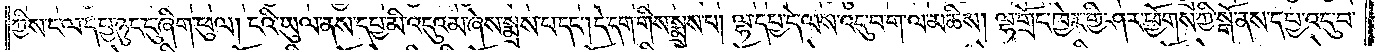ཀྱིས་ང་ལ་དཔྱ་ཉུང་དུ་ཞིག་ཕུལ། ངའི་ཡུལ་ནས་དཔྱ་མི་འདུའམ་ཞེས་སྨྲས་པ་དང༌། དེ་དག་གིས་སྨྲས་པ། ལྷ་དཔྱ་དེ་ལས་འདུ་བ་ག་ལ་མཆིས། ལྷ་གྲོང་ཁྱེར་གྱི་ཤར་ཕྱོགས་ཀྱི་སྒོ་ནས་དཔྱ་འདུ་བ་
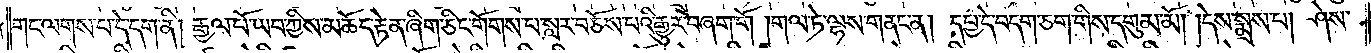གང་ལགས་པ་དེ་དག་ནི། རྒྱལ་པོ་ཡབ་ཀྱིས་མཆོད་རྟེན་ཞིག་ཅིང་གོགས་པ་སླར་བཅོས་པའི་རྒྱུར་བཞག་གོ །གལ་ཏེ་ལྷས་གནང་ན། དཔྱ་དེ་བདག་ཅག་གིས་དགུམ་མོ། །དེས་སྨྲས་པ། ཤེས་
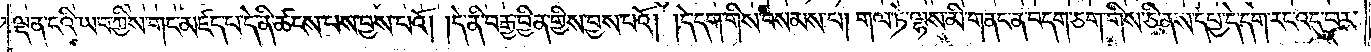ལྡན་ངའི་ཡབ་ཀྱིས་གང་མཛད་པ་དེ་ནི་ཚངས་པས་བྱས་པའོ། །དེ་ནི་བརྒྱ་བྱིན་གྱིས་བྱས་པའོ། །དེ་དག་གིས་བསམས་པ། གལ་ཏེ་ལྷས་མི་གནང་ན་བདག་ཅག་གིས་ཅི་ནས་དཔྱ་དེ་དག་རང་འདུ་བར་
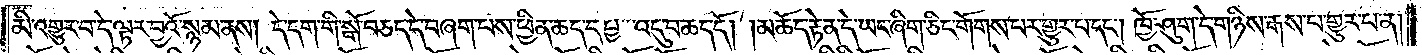མི་འགྱུར་བ་དེ་ལྟར་བྱའོ་སྙམ་ནས། དེ་དག་གི་སྒོ་བཅད་དེ་བཞག་པས་ཕྱིན་ཆད་དཔྱ་འདུ་བ་ཆད་དོ། །མཆོད་རྟེན་དེ་ཡང་ཞིག་ཅིང་གོགས་པར་གྱུར་པ་དང༌། ཁྱོ་ཤུག་དེ་གཉིས་རྒས་པ་གྱུར་པ་ན།
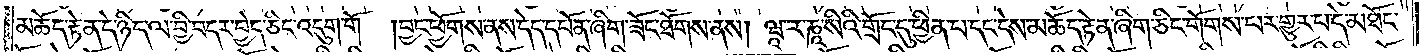མཆོད་རྟེན་དེ་ཉིད་ལ་བྱི་བདར་བྱེད་ཅིང་འདུག་གོ །བྱང་ཕྱོགས་ནས་དེད་དཔོན་ཞིག་ཟོང་ཐོགས་ནས། ཝཱ་ར་ཎཱ་སིའི་གྲོང་དུ་ཕྱིན་པ་དང་དེས་མཆོད་རྟེན་ཞིག་ཅིང་གོགས་པར་གྱུར་པ་དེ་མཐོང་
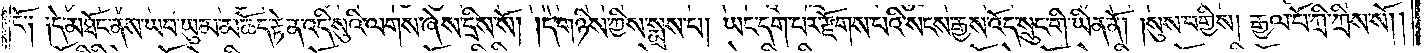ངོ༏ ༏  དེ་མཐོང་ནས་ཡབ་ཡུམ་མཆོད་རྟེན་འདི་སུའི་ལགས་ཞེས་དྲིས་སོ། །དེ་གཉིས་ཀྱིས་སྨྲས་པ། ཡང་དག་པར་རྫོགས་པའི་སངས་རྒྱས་འོད་སྲུང་གི་ཡིན་ནོ། །སུས་བགྱིས། རྒྱལ་པོ་ཀྲི་ཀྲིས་སོ། །
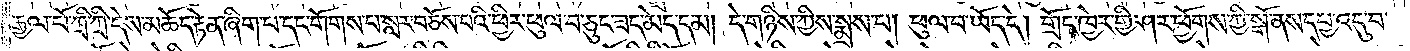རྒྱལ་པོ་ཀྲི་ཀྲི་དེས་མཆོད་རྟེན་ཞིག་པ་དང་གོགས་པ་སླར་བཅོས་པའི་ཕྱིར་ཕུལ་བ་ཅུང་ཟད་མེད་དམ། དེ་གཉིས་ཀྱིས་སྨྲས་པ། ཕུལ་བ་ཡོད་དེ། གྲོང་ཁྱེར་གྱི་ཤར་ཕྱོགས་ཀྱི་སྒོ་ནས་དཔྱ་འདུ་བ་
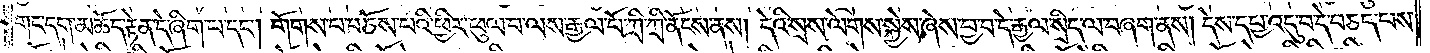གང་དག་མཆོད་རྟེན་དེ་ཞིག་པ་དང༌། གོགས་པ་བཅོས་པའི་ཕྱིར་ཕུལ་བ་ལས་རྒྱལ་པོ་ཀྲི་ཀྲི་ནོངས་ནས། དེའི་སྲས་ལེགས་སྐྱེས་ཞེས་བྱ་བ་དེ་རྒྱལ་སྲིད་ལ་བཞག་ནས། དེས་དཔྱ་འདུ་བ་དེ་བཅད་པས་
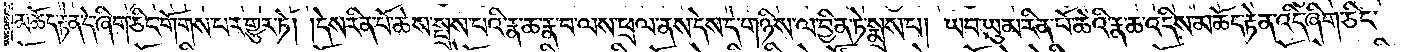མཆོད་རྟེན་དེ་ཞིག་ཅིང་གོགས་པར་གྱུར་ཏོ། །དེས་རིན་པོ་ཆེས་སྤྲས་པའི་རྣ་ཆ་རྣ་བ་ལས་ཕྲལ་ནས་དེས་དེ་གཉིས་ལ་བྱིན་ཏེ་སྨྲས་པ། ཡབ་ཡུམ་རིན་པོ་ཆེའི་རྣ་ཆ་འདིས་མཆོད་རྟེན་འདི་ཞིག་ཅིང་
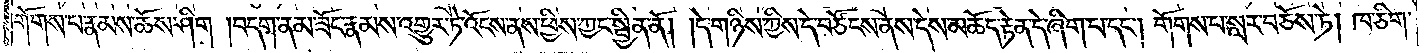གོགས་པ་རྣམས་ཆོས་ཤིག །བདག་ནམ་ཟོང་རྣམས་འགྱུར་ཏེ་འོངས་ནས་ཕྱིས་ཀྱང་སྦྱིན་ནོ། །དེ་གཉིས་ཀྱིས་དེ་བཙོངས་ནས་དེས་མཆོད་རྟེན་དེ་ཞིག་པ་དང༌། གོགས་པ་སླར་བཅོས་ཏེ། ཁ་ཅིག་
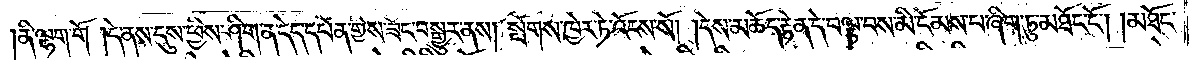ནི་ལྷག་གོ །དེ་ནས་དུས་ཕྱིས་ཤིག་ན་དེད་དཔོན་གྱིས་ཟོང་བསྒྱུར་ནས། སྤོགས་ཁྱེར་ཏེ་འོངས་སོ། །དེས་མཆོད་རྟེན་དེ་བལྟ་བས་མི་ངོམས་པ་ཞིག་ཏུ་མཐོང་ངོ༌། །མཐོང་
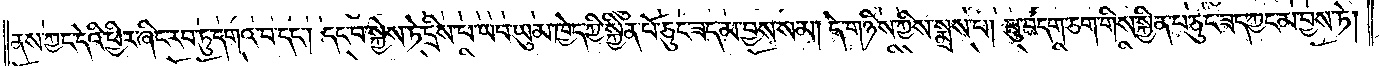ནས་ཀྱང་དེའི་ཕྱིར་ཞིང་རབ་ཏུ་དགའ་བ་དང༌། དང་བ་སྐྱེས་ཏེ་དྲིས་པ་ཡབ་ཡུམ་ཁྱེད་ཀྱི་སྐྱིན་པོ་ཅུང་ཟད་མ་བྱས་སམ། དེ་གཉིས་ཀྱིས་སྨྲས་པ། བུ་བདག་ཅག་གིས་སྐྱིན་པ་ཅུང་ཟད་ཀྱང་མ་བྱས་ཏེ།
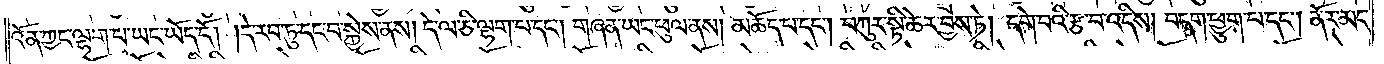འོན་ཀྱང་ལྷག་པ་ཡང་ཡོད་དོ། །དེ་རབ་ཏུ་དང་བ་སྐྱེས་ནས། དེ་ལ་ཅི་ལྷག་པ་དང༌། གཞན་ཡང་ཕུལ་ནས། མཆོད་པ་དང༌། བཀུར་སྟི་ཆེར་བྱས་ཏེ། དགེ་བའི་རྩ་བ་འདིས། བདག་ཕྱུག་པ་དང༌། ནོར་མང་
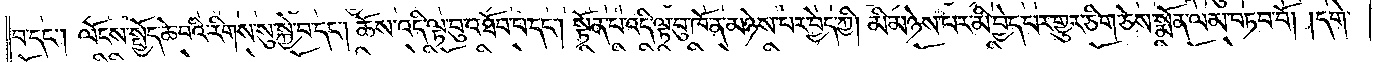བ་དང༌། ལོངས་སྤྱོད་ཆེ་བའི་རིགས་སུ་སྐྱེ་བ་དང༌། ཆོས་འདི་ལྟ་བུ་འཐོབ་པ་དང༌། སྟོན་པ་འདི་ལྟ་བུ་ཁོ་ན་མཉེས་པར་བྱེད་ཀྱི། མི་མཉེས་པར་མི་བྱེད་པར་གྱུར་ཅིག་ཅེས་སྨོན་ལམ་བཏབ་བོ། །དགེ་
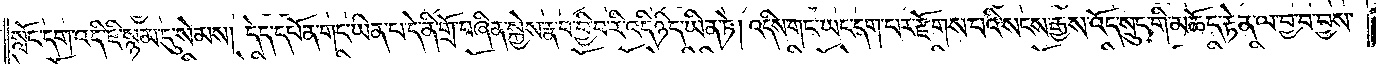སློང་དག་འདི་ཇི་སྙམ་དུ་སེམས། དེད་དཔོན་གང་ཡིན་པ་དེ་ནི་གྲོ་བཞིན་སྐྱེས་རྣ་བ་བྱི་བ་རི་འདི་ཉིད་ཡིན་ཏེ། འདིས་གང་ཡང་དག་པར་རྫོགས་པའི་སངས་རྒྱས་འོད་སྲུང་གི་མཆོད་རྟེན་ལ་བྱ་བ་བྱས་
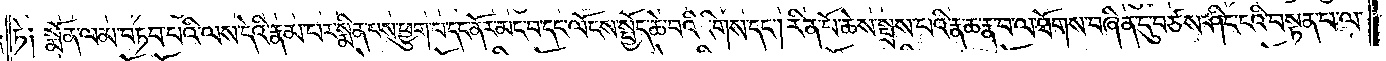ཏེ༏ སྨོན་ལམ་བཏབ་པའི་ལས་དེའི་རྣམ་པར་སྨིན་པས་ཕྱུག་པ་དང་ནོར་མང་བ་དང་ལོངས་སྤྱོད་ཆེ་བའི་རིགས་དང༌། རིན་པོ་ཆེས་སྤྲས་པའི་རྣ་ཆ་རྣ་བ་ལ་ཐོགས་བཞིན་དུ་བཙས་ཤིང་ངའི་བསྟན་པ་ལ་
